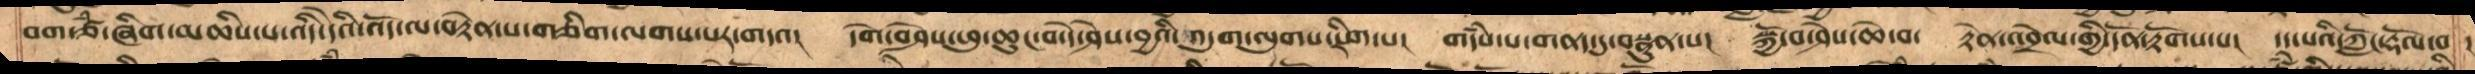བག་ཙཾ་ཞིག་མཆིས་པ་འདི་དེའི་འོད་ལ་བརྟེན་པ་གཅིག་ལགས་པར་གདའ།   དགེ་བཤེས་ཕུ་ཆུང་བ་དེ་ཤེས་བྱའི་འདུག་ལུགས་རིག་པ།  གདཾས་པ་གནད་དུ་བསྣུན་པ།  སྐྱོ་བ་ཤེས་ཆེ་བ་  རྟེན་འབྲེལ་གྱི་དོན་རྟོགས་པ། དད་པའི་ཀློང་རྡོལ་བ།
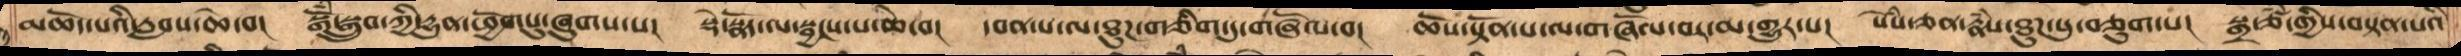མཆོད་པའི་རླབས་ཆེ་བ།   སྒོཾ་སྒྲུབ་ཀྱི་དྱུན་ཕྱོགསུ་ཞུགས་པ།   སྡེ་སྣོད་ལ་སྦྱངས་པ་ཆེ་བ། དབན་པ་ལ་ཐུཌ་གཅིག་དུ་གཞོལ་བ། ཆོས་སྟོན་པ་ལ་གཞོལ་བར་མ་གྱུར་པ།  སེཾས་ཅན་རྣཾས་ཐུཌ་སུ་བཅུག་པ།  སྒྲ་ཙཾ་གྱིས་བསྟན་པའི
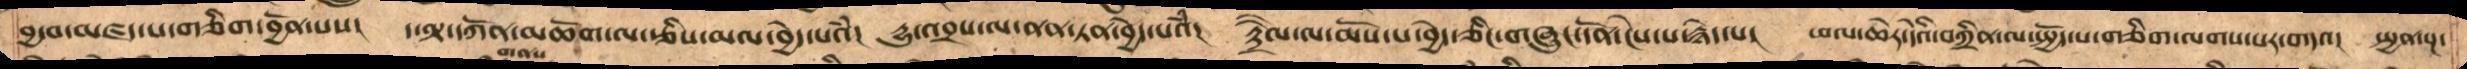བྱ་བ་མཛད་པ་གཅིག་བྱོན་པས།    ད་ལྟ་དཀོན་མཆོག་ལརྩིས་མལ་བྱེད་པའཾ།    དྱུ་འབྲས་ལ་ནན་ཏན་བྱེད་པའཾ།   རྟྲཻལལ་མོས་པ་བྱེད་ཅིང་གཞུང་དོན་ངེས་པ་རྙེད་པ། ཕལ་ཆེར་དེའི་བཀྲིན་ལ་སྤྱོད་པ་གཅིག་ལགས་པར་གདའ། སྤྱན་སྔ་
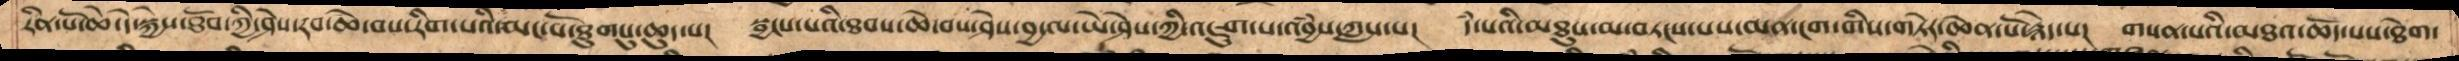རིན་པོ་ཆེ་དེ་སྐྱེས་ཐོབ་ཀྱི་ཤེས་རབ་ཆེ་བས་རིག་པའི་མང་པོ་ཐུགསུ་ཆུད་པ།   སྦྱངས་པའི་ཐབས་ཆེ་བས་ཤེས་བྱ་ལ་ཡེ་ཤེས་ཀྱི་འཇུག་པ་འབྱཾས་ཀླས་པ། དཾ་པའི་མཐུས་མ་བཏངས་པས་མན་ངག་གིས་གཏེར་ཆེན་པོ་རྙེད་པ། གསན་པའི་མཐའ་ཆོད་པས་ཐེག་
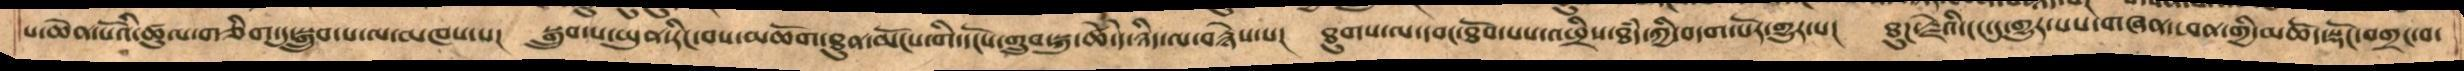པ་ཆེན་པོའི་ཚུལ་གཅིག་དུ་སྒྲུབ་པ་ལ་མཁས་པ།   སྒྲུབ་པ་ཡུན་རིང་བས་མཆོག་ཐུན་མོངས་གི་དངོས་གྲུབ་སྐུ་ཚེ་དེ་ཉིད་ལ་བརྙེས་པ།  ཐུགས་ལ་དབང་ཐོབ་པས་འཕྲིས་ཐཾད་ཀྱི་བདག་པོར་གྱུར་པ།  ཐུགས་རྗེའི་ངང་དུ་གྱུར་པས་གཞན་ཕན་གྱི་མཆོད་སྡོང་བགྲང་བ་
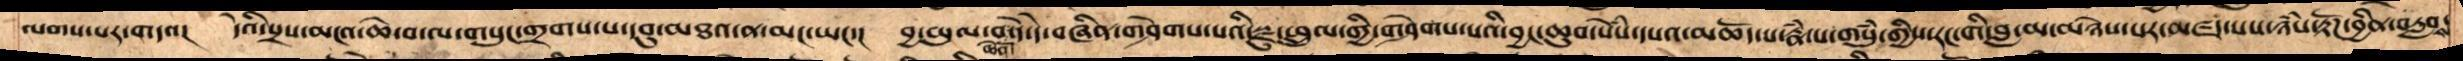ལགས་པར་གདའ།    དེའི་སྲས་མངའ་ཆེ་བ་ལ་གསུང་གྲགས་པ་དབུ་མཐའ་ན་མང་ཡང་།    བྱ་ཡུལ་བ་ཆེནོ་བ་དེ་དེ་བཞིན་གཤེགས་པའི་སྫུ་ཕྲུལ་གྱི་གཤེགས་པའི་བྱང་ཆུབ་སེཾས་དཔའ་མཆོད་པ་རྣཾ་པ་གསུཾ་གྱིས་རང་གི་བླ་མ་མཉེས་པར་མཛད་པས་ཉཾས་རྟོཌ་བྱིན་བརླབས་
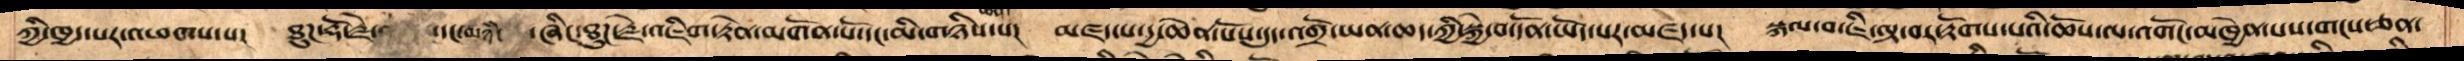ཀྱི་ཁྱད་པར་འཕགས་པ།   ཐུཌ་རྡོ་རྗེ་འཆང་དང་མཉཾ་ཞིང་ཐུཌ་རྗེ་འཇིག་རྟེན་མགོན་པོ་དང་མི་གཉིས་པ།   མཛད་པ་དྱ་ཆེན་པོས་དུད་འགྲོ་ཡན་ཆད་ཀྱི་སྐྱེ་བ་དོན་ཡོད་པར་མཛད་པ།   སྐལ་བ་ཇི་ལྟ་བར་རྟོགས་པའི་ཆོས་ལ་འགོང་མཁྱེན་པས་གངས་ཅན་
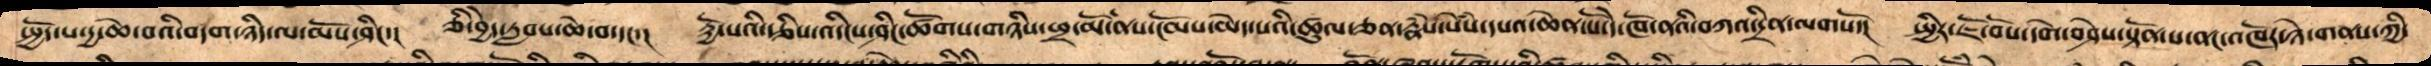སྤྱོད་པ་རྒྱ་ཆེ་བའི་བདག་ཉིད་ལ་མོས་ཤིང་།   ཅི་བྱེད་རླབས་ཆེ་བ་དང་།   རྟྱོ་པའི་རྩིས་འདིངས་ཤིང་ཚོགས་གཉིས་ཕྲ་མོ་ནས་ངོམས་མེད་པའི་ཚུལ་ཅན་རྣཾས་སེཾས་དཔའ་ཆེན་པོ་དེ་ཁོ་ནའི་བཀའ་དྲིན་ལགསོ་།   སྤྱིར་ཇོ་བོས་དགེ་བཤེས་སྟོན་པ་ནང་འཁོར་ཉེ་གནས་ཀྱི་
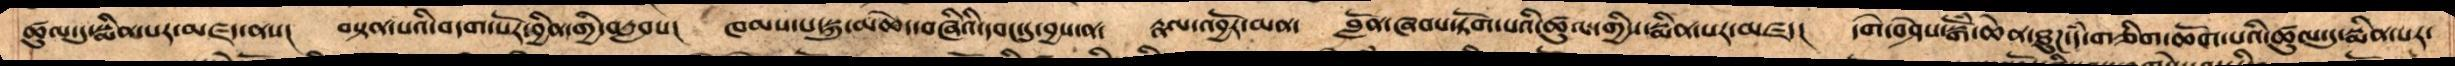ཚུལ་དུ་སྨིན་པར་མཛད་ནས།  བསྟན་པའི་བདག་པོར་བྱིན་གྱི་བརླབས།  ཁམས་པ་སྐུ་མཆེད་བཞིའི་དབང་དུ་བྱས་ན།  རྣལ་འབྱོར་མན་  བློན་ཞབས་ཏོག་པའི་ཚུལ་གྱི་སྨིན་པར་མཛད།   དགེ་བཤེས་སྒོཾ་ཆེན་ཐུཌ་དཾ་གཅིག་ཆོག་པའི་ཚུལ་དུ་སྨིན་པར་
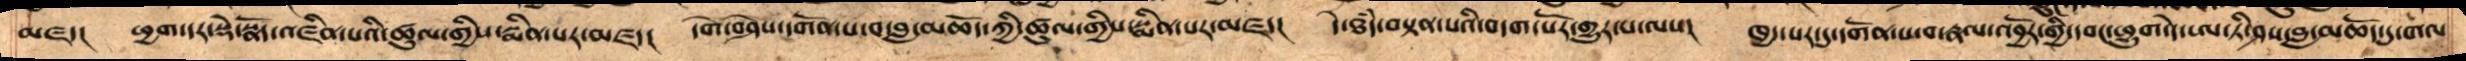མཛད།   ཕྱག་དར་སྡེ་སྣོད་འཛིན་པའི་ཚུལ་གྱིས་སྨིན་པར་མཛད།    དགེ་བཤེས་དགོན་པ་བ་བླ་མཆོད་ཀྱི་ཚུལ་གྱིས་སྨིན་པར་མཛད།  དེ་ཐཾད་བསྟན་པའི་བདག་པོར་གྱུར་པ་ལས།  ཁྱད་པར་དུ་དགོན་པ་བ་རྣལ་འབྱོར་གྱི་དབང་ཕྱུག་དེ་ཨ་ཏི་ཤས་བླ་མཆོད་དུ་གལ
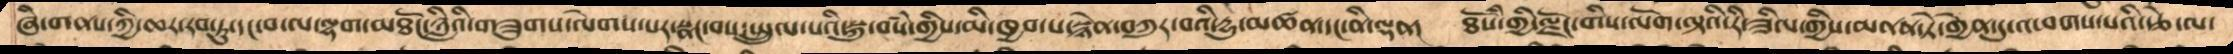ཞི་གནས་ཀྱི་ཆར་རབ་ཏུ་དང་བ་ལ་ལྷག་མཐོང་ཉླིའི་གཟུགས་ལེགས་པར་སྣང་བས་སྤྲུལ་པའི་སྐུ་བསཾ་གྱིས་མི་ཁྱབ་པ་སྙེན་བཀུར་བའི་དྱུ་མཚན་དང་ནི་ལྡན།   ཐོསཾ་གྱི་ལྗོང་གིས་ལོག་ལྟའི་རི་ཟིལ་གྱིས་མནན་ཏེ་གྱེན་དུ་འཕགས་པའི་རྩེ་ལ་
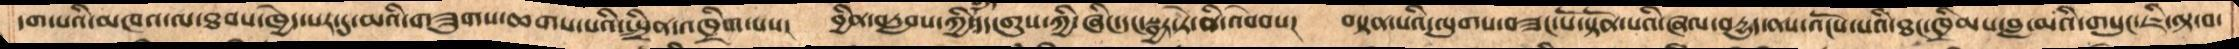དག་པའི་མཁའ་ལ་ཐབས་ཁྱེད་པར་དུ་མའི་གཟུགས་ཆགས་པའི་སྤྲིན་འཁྲིག་པས།   བྱིན་བརླབས་ཀྱི་དད་གུས་ཀྱི་ཞིང་དང་སྦྱང་ཏེ་ནི་འབེབས།   བསྟན་པའི་ལུགས་བཟང་པོ་སྟོན་པའི་ཞལ་བདྱུད་ནས་འོངས་པའི་ཐང་ཁྲིམས་བླ་མའི་གསུང་ཇི་ལྟ་བ་
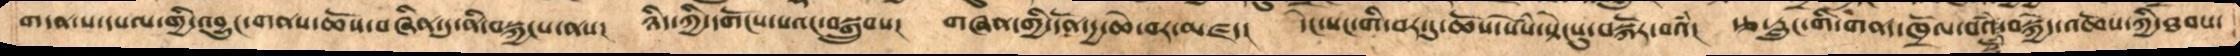གདན་ས་དཔལ་གྱི་འབྱུང་གནས་ཆོས་བཞིན་དུ་ནི་བསྐྱངས་ནས།   ཉིད་ཀྱི་དགོངས་པའང་བསྒྲུབས།   གཞན་གྱི་དོན་དྱ་ཆེ་བར་མཛད་།    དེང་སང་གི་བར་དུ་ཆོས་སེསཾ་སྟེངསུ་བསྐོར་བའཾ།   རྩ་རླུང་གི་གནད་ཁྲོལ་བའཾ་བསྐྱེད་འཆོས་ཀྱི་ཐབས་
